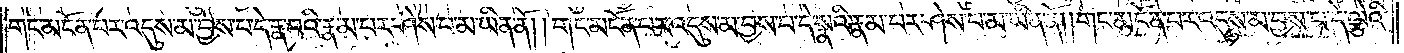གང་མངོན་པར་འདུས་མ་བྱས་པ་དེ་རྣ་བའི་རྣམ་པར་ཤེས་པ་མ་ཡིན་ནོ། །གང་མངོན་པར་འདུས་མ་བྱས་པ་དེ་སྣའི་རྣམ་པར་ཤེས་པ་མ་ཡིན་ནོ། །གང་མངོན་པར་འདུས་མ་བྱས་པ་དེ་ལྕེའི་
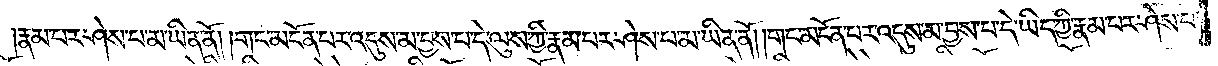རྣམ་པར་ཤེས་པ་མ་ཡིན་ནོ། །གང་མངོན་པར་འདུས་མ་བྱས་པ་དེ་ལུས་ཀྱི་རྣམ་པར་ཤེས་པ་མ་ཡིན་ནོ། །གང་མངོན་པར་འདུས་མ་བྱས་པ་དེ་ཡིད་ཀྱི་རྣམ་པར་ཤེས་པ་
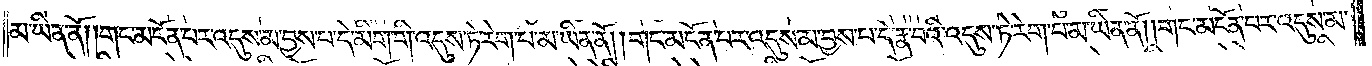མ་ཡིན་ནོ། །གང་མངོན་པར་འདུས་མ་བྱས་པ་དེ་མིག་གི་འདུས་ཏེ་རེག་པ་མ་ཡིན་ནོ། །གང་མངོན་པར་འདུས་མ་བྱས་པ་དེ་རྣ་བའི་འདུས་ཏེ་རེག་པ་མ་ཡིན་ནོ། །གང་མངོན་པར་འདུས་མ་
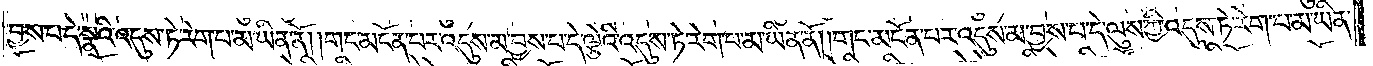བྱས་པ་དེ་སྣའི་འདུས་ཏེ་རེག་པ་མ་ཡིན་ནོ། །གང་མངོན་པར་འདུས་མ་བྱས་པ་དེ་ལྕེའི་འདུས་ཏེ་རེག་པ་མ་ཡིན་ནོ། །གང་མངོན་པར་འདུས་མ་བྱས་པ་དེ་ལུས་ཀྱི་འདུས་ཏེ་རེག་པ་མ་ཡིན་
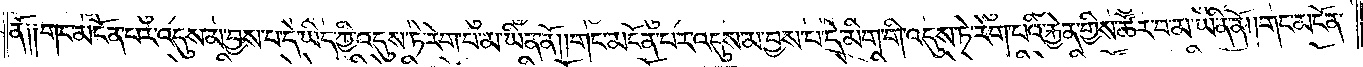ནོ༑ ༑གང་མངོན་པར་འདུས་མ་བྱས་པ་དེ་ཡིད་ཀྱི་འདུས་ཏེ་རེག་པ་མ་ཡིན་ནོ། །གང་མངོན་པར་འདུས་མ་བྱས་པ་དེ་མིག་གི་འདུས་ཏེ་རེག་པའི་རྐྱེན་གྱིས་ཚོར་བ་མ་ཡིན་ནོ། །གང་མངོན་
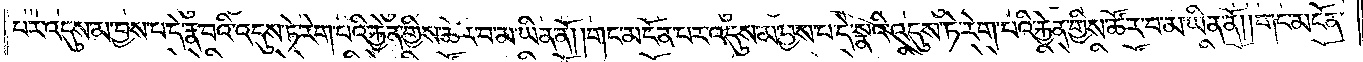པར་འདུས་མ་བྱས་པ་དེ་རྣ་བའི་འདུས་ཏེ་རེག་པའི་རྐྱེན་གྱིས་ཚོར་བ་མ་ཡིན་ནོ། །གང་མངོན་པར་འདུས་མ་བྱས་པ་དེ་སྣའི་འདུས་ཏེ་རེག་པའི་རྐྱེན་གྱིས་ཚོར་བ་མ་ཡིན་ནོ། །གང་མངོན་
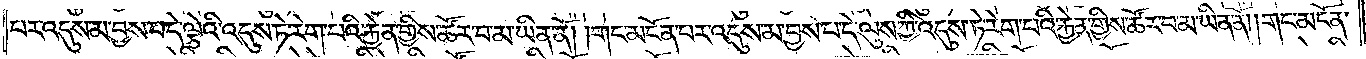པར་འདུས་མ་བྱས་པ་དེ་ལྕེའི་འདུས་ཏེ་རེག་པའི་རྐྱེན་གྱིས་ཚོར་བ་མ་ཡིན་ནོ། །གང་མངོན་པར་འདུས་མ་བྱས་པ་དེ་ལུས་ཀྱི་འདུས་ཏེ་རེག་པའི་རྐྱེན་གྱིས་ཚོར་བ་མ་ཡིན་ནོ། །གང་མངོན་
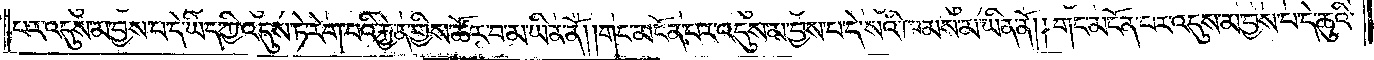པར་འདུས་མ་བྱས་པ་དེ་ཡིད་ཀྱི་འདུས་ཏེ་རེག་པའི་རྐྱེན་གྱིས་ཚོར་བ་མ་ཡིན་ནོ། །གང་མངོན་པར་འདུས་མ་བྱས་པ་དེ་སའི་ཁམས་མ་ཡིན་ནོ། །གང་མངོན་པར་འདུས་མ་བྱས་པ་དེ་ཆུའི་
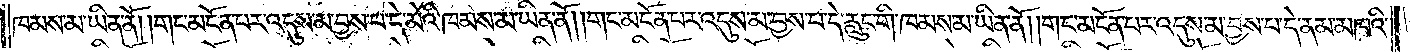ཁམས་མ་ཡིན་ནོ། །གང་མངོན་པར་འདུས་མ་བྱས་པ་དེ་མེའི་ཁམས་མ་ཡིན་ནོ། །གང་མངོན་པར་འདུས་མ་བྱས་པ་དེ་རླུང་གི་ཁམས་མ་ཡིན་ནོ། །གང་མངོན་པར་འདུས་མ་བྱས་པ་དེ་ནམ་མཁའི་
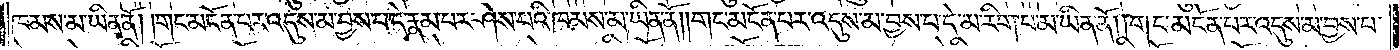ཁམས་མ་ཡིན་ནོ། །གང་མངོན་པར་འདུས་མ་བྱས་པ་དེ་རྣམ་པར་ཤེས་པའི་ཁམས་མ་ཡིན་ནོ། །གང་མངོན་པར་འདུས་མ་བྱས་པ་དེ་མ་རིག་པ་མ་ཡིན་ནོ། །གང་མངོན་པར་འདུས་མ་བྱས་པ་
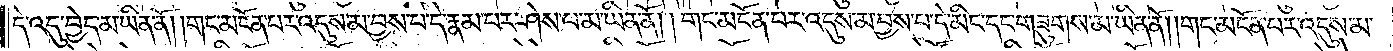དེ་འདུ་བྱེད་མ་ཡིན་ནོ། །གང་མངོན་པར་འདུས་མ་བྱས་པ་དེ་རྣམ་པར་ཤེས་པ་མ་ཡིན་ནོ། །གང་མངོན་པར་འདུས་མ་བྱས་པ་དེ་མིང་དང་གཟུགས་མ་ཡིན་ནོ། །གང་མངོན་པར་འདུས་མ་
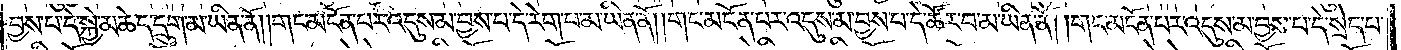བྱས་པ་དེ་སྐྱེ་མཆེད་དྲུག་མ་ཡིན་ནོ། །གང་མངོན་པར་འདུས་མ་བྱས་པ་དེ་རེག་པ་མ་ཡིན་ནོ། །གང་མངོན་པར་འདུས་མ་བྱས་པ་དེ་ཚོར་བ་མ་ཡིན་ནོ། །གང་མངོན་པར་འདུས་མ་བྱས་པ་དེ་སྲེད་པ་
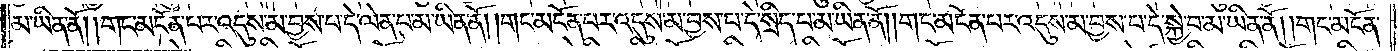མ་ཡིན་ནོ། །གང་མངོན་པར་འདུས་མ་བྱས་པ་དེ་ལེན་པ་མ་ཡིན་ནོ། །གང་མངོན་པར་འདུས་མ་བྱས་པ་དེ་སྲིད་པ་མ་ཡིན་ནོ། །གང་མངོན་པར་འདུས་མ་བྱས་པ་དེ་སྐྱེ་བ་མ་ཡིན་ནོ། །གང་མངོན་
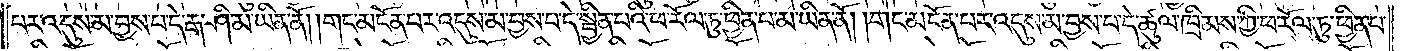པར་འདུས་མ་བྱས་པ་དེ་རྒ་ཤི་མ་ཡིན་ནོ། །གང་མངོན་པར་འདུས་མ་བྱས་པ་དེ་སྦྱིན་པའི་ཕ་རོལ་ཏུ་ཕྱིན་པ་མ་ཡིན་ནོ། །གང་མངོན་པར་འདུས་མ་བྱས་པ་དེ་ཚུལ་ཁྲིམས་ཀྱི་ཕ་རོལ་ཏུ་ཕྱིན་པ་
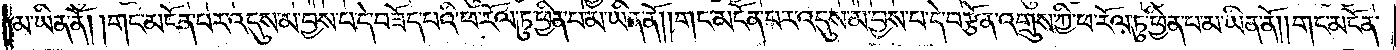མ་ཡིན་ནོ། །གང་མངོན་པར་འདུས་མ་བྱས་པ་དེ་བཟོད་པའི་ཕ་རོལ་ཏུ་ཕྱིན་པ་མ་ཡིན་ནོ། །གང་མངོན་པར་འདུས་མ་བྱས་པ་དེ་བརྩོན་འགྲུས་ཀྱི་ཕ་རོལ་ཏུ་ཕྱིན་པ་མ་ཡིན་ནོ། །གང་མངོན་
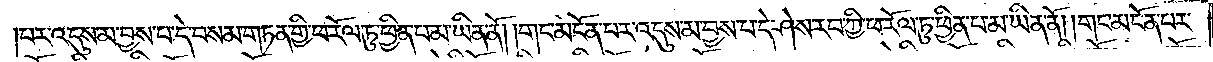པར་འདུས་མ་བྱས་པ་དེ་བསམ་གཏན་གྱི་ཕ་རོལ་ཏུ་ཕྱིན་པ་མ་ཡིན་ནོ། །གང་མངོན་པར་འདུས་མ་བྱས་པ་དེ་ཤེས་རབ་ཀྱི་ཕ་རོལ་ཏུ་ཕྱིན་པ་མ་ཡིན་ནོ། །གང་མངོན་པར་
